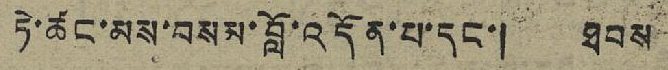ཏེ་ཚང་མས་བསམ་བློ་འདོན་པ་དང་། ཐབས་
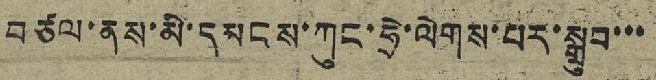བཙལ་ནས་མི་དམངས་ཀུང་ཧྲེ་ལེགས་པར་སྒྲུབ་་་
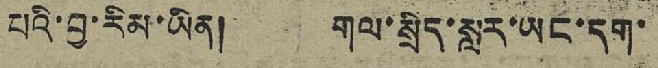པའི་བྱ་རིམ་ཡིན། གལ་སྲིད་སླར་ཡང་དག་
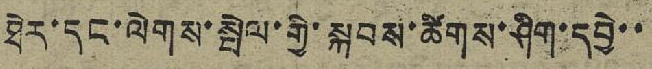ཐེར་དང་ལེགས་སྤེལ་གྱི་སྐབས་ཚིགས་ཤིག་དབྱེ་་
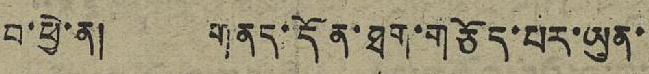བ་ཕྱེ་ན། གནད་དོན་ཐག་གཅོད་པར་ཡུན་
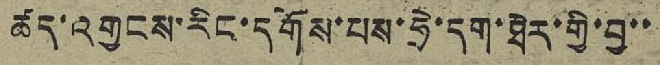ཚད་འགྱངས་རིང་དགོས་པས་ཧྲེ་དག་ཐེར་གྱི་བྱ་་
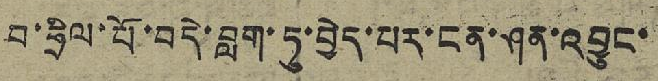བ་ཧྲིལ་པོ་བདེ་བླག་ཏུ་བྱེད་པར་ངན་ཤན་འབྱུང་
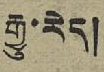རྒྱུ་རེད།
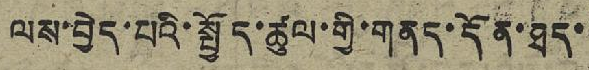ལས་བྱེད་པའི་སྤྱོད་ཚུལ་གྱི་གནད་དོན་ཐད་
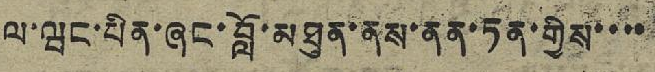ལ་ཝང་པིན་ཞང་བློ་མཐུན་ནས་ནན་ཏན་གྱིས་་་་
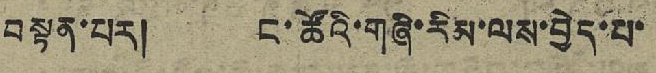བསྟན་པར། ང་ཚོའི་གཞི་རིམ་ལས་བྱེད་པ་
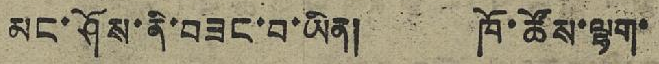མང་ཤོས་ནི་བཟང་བ་ཡིན། ཁོ་ཚོས་ལྷག་
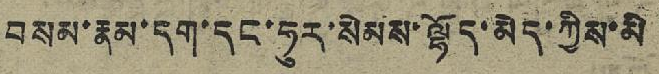བསམ་རྣམ་དག་དང་ཧུར་སེམས་ལྷོད་མེད་ཀྱིས་མི
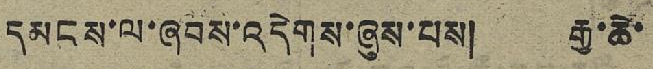དམངས་ལ་ཞབས་འདེགས་ཞུས་པས། རྒྱ་ཆེ་
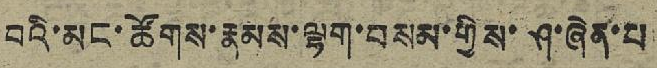བའི་མང་ཚོགས་རྣམས་ལྷག་བསམ་གྱིས་ཤ་ཞེན་པ
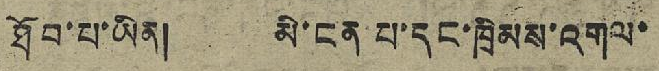ཐོབ་པ་ཡིན། མི་ངན་པ་དང་ཁྲིམས་འགལ་
